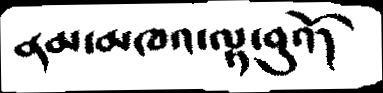ནམ་མཁའ་ལྟ་བུའོ།
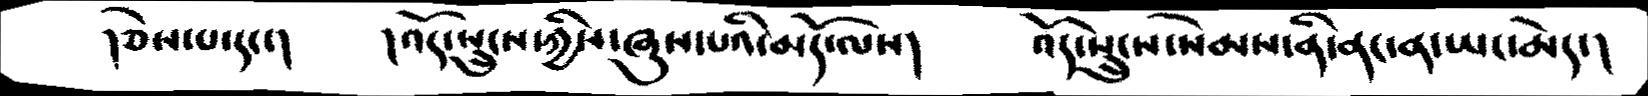།ཅེས་པ་དང་།      །འོད་སྲུངས་ཀྱིས་ཞུས་པའི་མདོ་ལས།    འོད་སྲུངས་སེམས་ནི་ནང་ན་ཡང་མེད་།
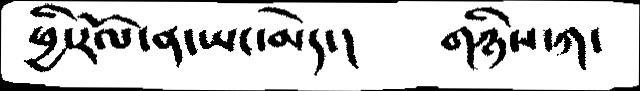ཕྱི་རོལ་ན་ཡང་མེད་།   གཉིས་ཀ་
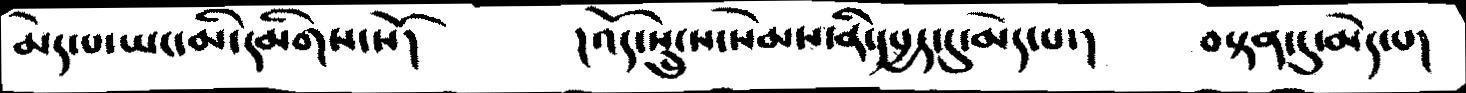མེད་པ་ཡང་མི་དམིགས་སོ།        །འོད་སྲུངས་སེམས་ནི་དཔྱད་དུ་མེད་པ་།    བསྟན་དུ་མེད་པ།
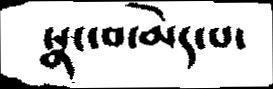སྣང་བ་མེད་པ་
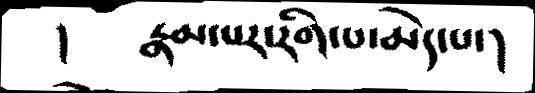།     རྣམ་པར་རིག་པ་མེད་པ་།
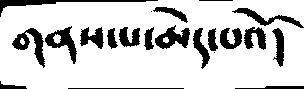གནས་པ་མེད་པའོ།
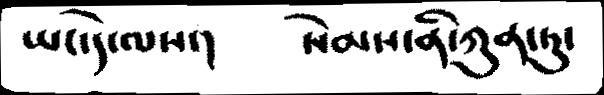ཡང་དེ་ལས་།         སེམས་ནི་ཀུན་ཏུ་
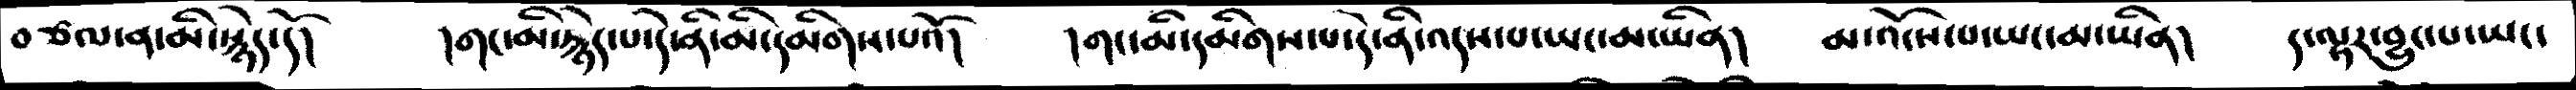བཙལ་ན་མི་སྙེད་དོ།    །གང་མི་རྙེད་པ་དེ་ནི་མི་དམིགས་པའོ།  །གང་མི་དམིགས་པ་དེ་ནི་འདས་པ་ཡང་མ་ཡིན།    མ་འོངས་པ་ཡང་མ་ཡིན།      ད་ལྟར་བྱུང་པ་ཡང་།
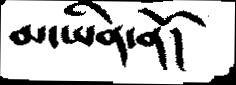མ་ཡིན་ནོ།
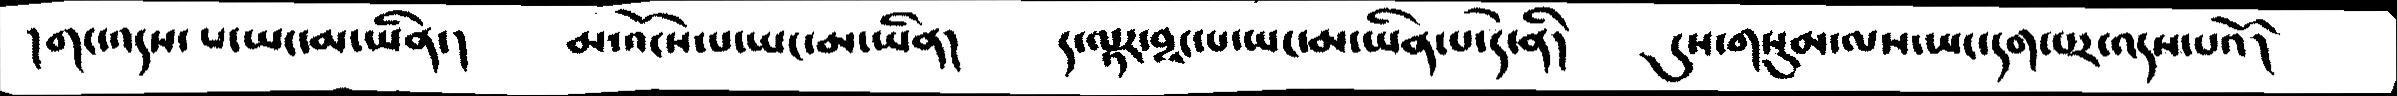།གང་འདས་པ་ཡང་མ་ཡིན་།     མ་འོངས་པ་ཡང་མ་ཡིན།    ད་ལྟར་བྱུང་པ་ཡང་མ་ཡིན་པ་དེ་ནི།  དུས་གསུམ་ལས་ཡང་དག་པར་འདས་པའོ།
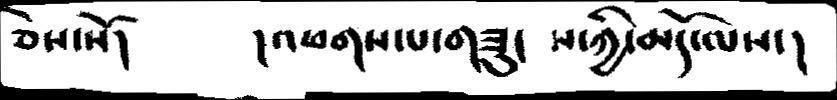ཅེས་སོ།             །འཕགས་པ་གཟུང ས་ཀྱི་མདོ་ལས་།
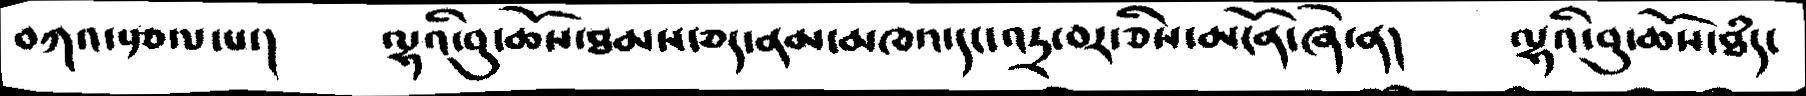བཀའ་བརྩལ་པ་།     ལྷའི་བུ་ཆོས་ཐམས་ཅད་ནམ་མཁའ་དང་འདྲ་བར་ཅིས་མངོན་ཞེ་ན།     ལྷའི་བུ་ཆོས་ཐཾད་
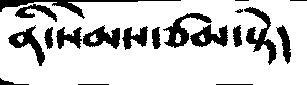ནི་སེམས་ཙམ་སྟེ།
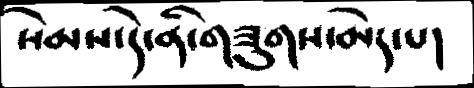སེམས་དེ་ནི་གཟུགས་མེད་པ།
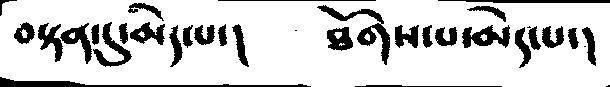བསྟན་དུ་མེད་པ་།        ཐོགས་པ་མེད་པ་།
